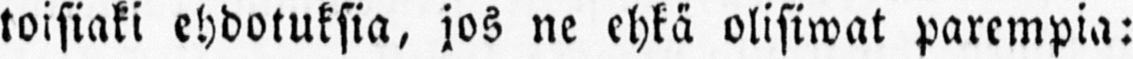toisiaki ehdotuksia, jos ne ehkä olisiwat parempia:
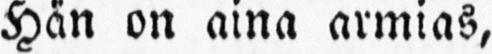Hän on aina armias,
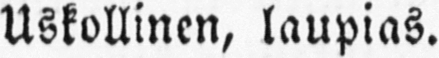Uskollinen, laupias,
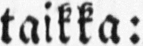taikka:
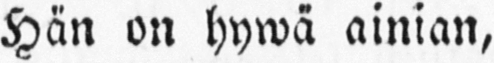Hän on hywä ainian,
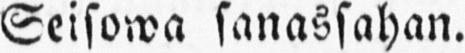Seisowa sanassahan.
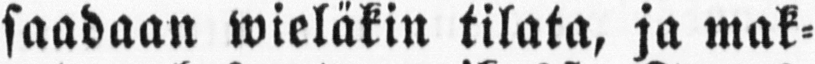Tä hteä saadaan wieläkin tilata, ja mak-
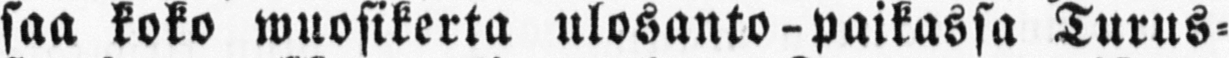saa koko wuosikerta ulosanto-paikassa Turus-
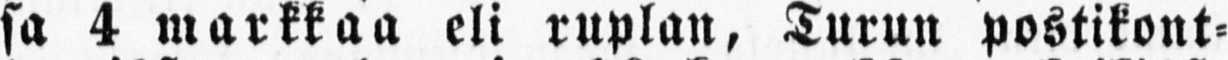sa 4 markkaa eli ruplan, Turun postikont-
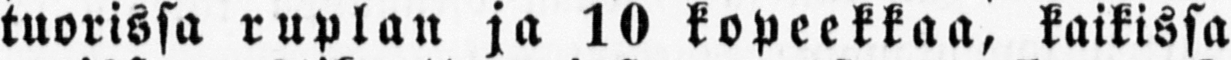tuorissa ruplan ja 10 kopeekkaa, kaikissa
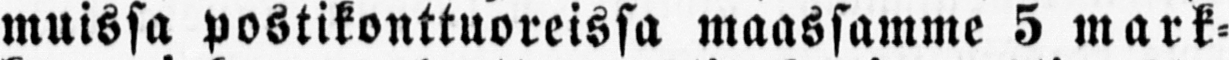muissa postikonttuoreissa maassamme 5 mark-
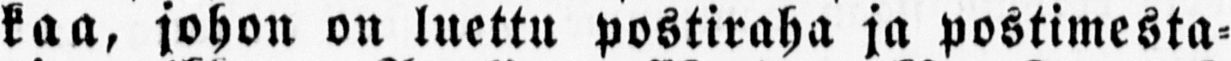kaa, johon on luettu postiraha ja postimesta-
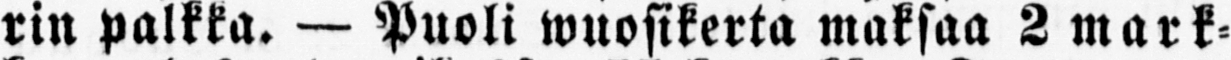rin palkka. — Puoli wuosikerta maksaa 2 mark-
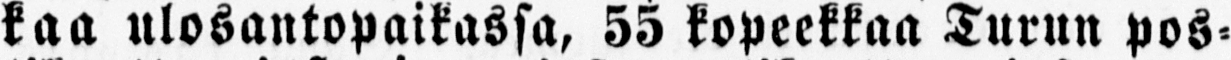kaa ulosantopaikassa, 55 kopeekkaa Turun pos-
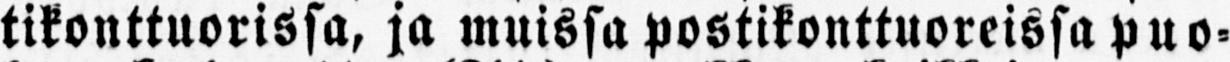tikonttuorissa, ja muissa postikonttuoreissa puo-
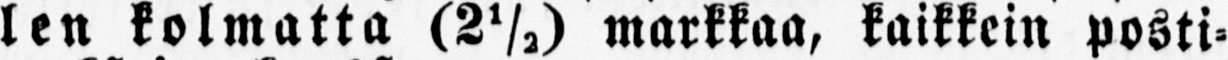len kolmatta (2½) markkaa, kaikkein posti-
